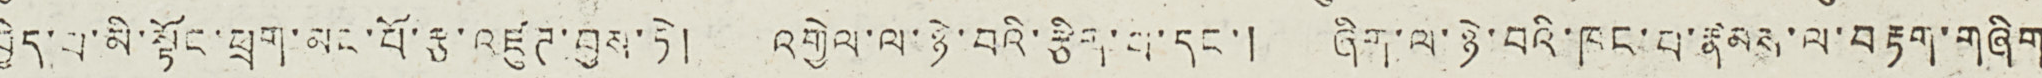བྱེད་པ་མི་སྟོང་ཕྲག་མང་པོ་རྩ་འཛུཊ་བྱས་ཏེ། འགྱེལ་ལ་ཉེ་བའི་རྩིག་པ་དང་། ཞིག་ལ་ཉེ་བའི་ཁང་བ་རྣམས་ལ་བརྟག་གཞིག
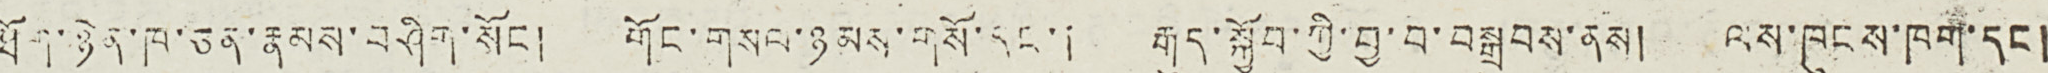ཐོག་ཉེན་ཁ་ཅན་རྣམས་བཤིག་སོང ། གོང་གསལ་ཉམས་གསོ་དང་། རྒུད་སྐྱོབ་ཀྱི་བྱ་བ་བསྒྲུབས་ནས། ལས་ཁུངས་ཁག་དང །
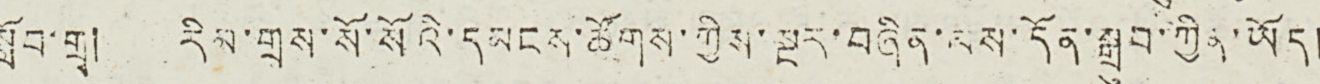སློབ་གྲྭ། རིམ་གྲས་སོ་སོའི་དམངས་ཚོགས་ཀྱིས་སྔར་བཞིན་ལས་དོན་སྒྲུབ་ཀྱིན་ཡོད།
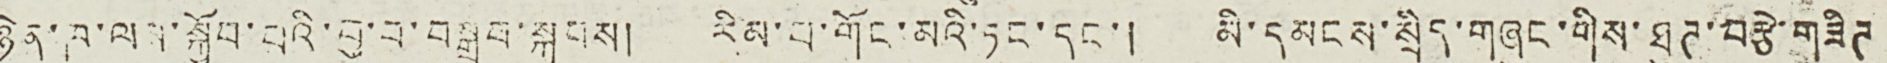ཉེན་ཁ་ལས་སྐྱོབ་པའི་བྱ་བ་བསྒྲུབ་སྐབས། རིམ་པ་གོང་མའི་ཏང་དང་། མི་དམངས་སྲིད་གཞུང་གིས་ཐུཊ་བརྩེ་གཟིཊ་
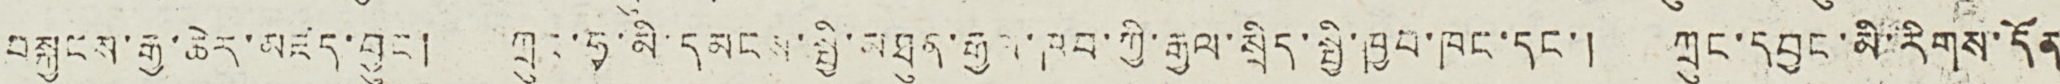བསྐྱངས་རྒྱ་ཆེར་མཛད་བྱུང ། ཀྲུང་ཧྭ་མི་དམངས་སྤྱི་མཐུན་རྒྱལ་ཁབ་ཀྱི་རྒྱལ་སྲིད་སྤྱི་ཁྱབ་ཁང་དང་། ཀྲུང་དབྱང་མི་རིགས་དོན
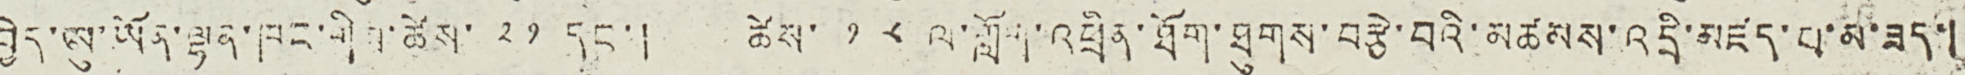བྱེད་ཨུ་ཡོན་ལྷན་ཁང་གིས་ཚེས་ ༢༡ དང་། ཚེས་ ༡༨ ལ་གློག་འཕྲིན་ཐོག་ཐུགས་བརྩེ་བའི་མཚམས་འདྲི་མཛད་པ་མ་ཟད་།
